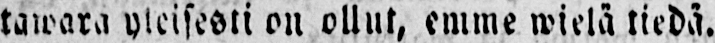tawara yleisesti on ollut, emme wielä tiedä.
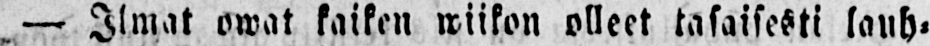,— Ilmat owat kaiken wiikon olleet tasaisesti lauh-
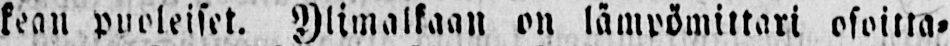kean puoleiset. Ylimalkaan on lämpömittari osoitta-
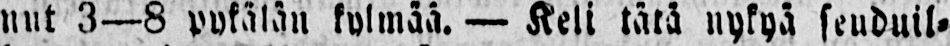nut 3—8 pykälän kylmää. — Keli tätä nykyä seuduil-
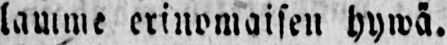lamme erinomaisen hywä.
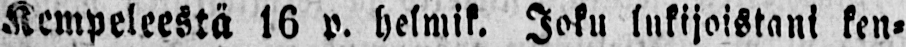Kempeleestä 16 p. helmik. Joku lukijoistani ken-
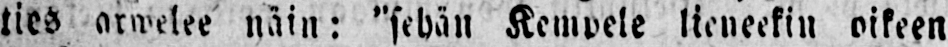ties arwelee näin: "sehän Kempele lieneekin oikeen
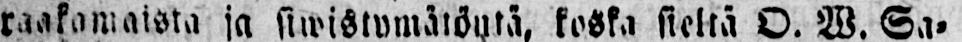raakamaista ja siwistymätöutä koska sieltä O. W. Sa-
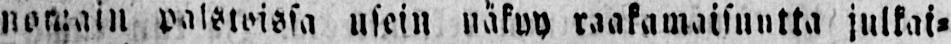nomain palstoissa usein näkyy raakamaisuutta julkai-
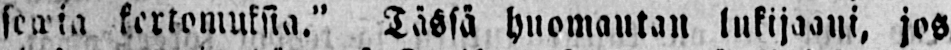sevia kertomuksia." Tässä huomautan lukijaani, jos
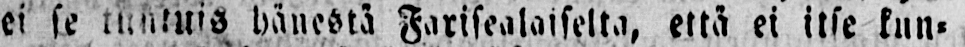ei se tuntuis hänestä Farisealaiselta, että ei itse kun-
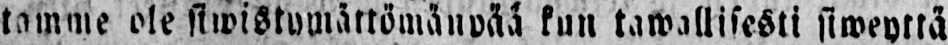tamme ole siwistymättömänpää kun tawallisesti siweyttä
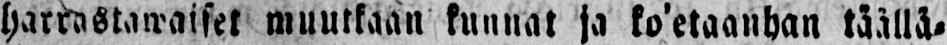harrastawaiset muutkaan kunnat ja ko'etaanhan täällä-
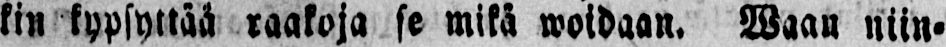kin kypsyttää raakoja se mikä woidaan. Waan niin-
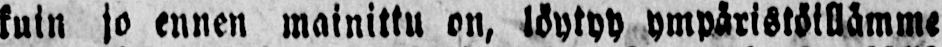kuin jo ennen mainittu on, löytyy ympäristöillämme
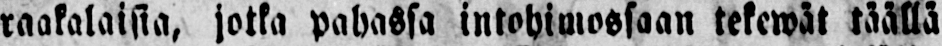raakalaisia, jotka pahassa intohimossaan tekewät täällä
